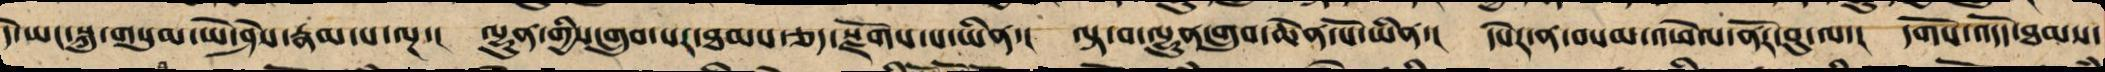དེ་ཡང་སྐུ་གསུམ་ཡེ་ཤེས་རྣམ་པ་ལྔ་། ལྷུན་གྱིས་གྲུབ་པར་ཐམས་ཅད་སྫོགས་པ་ཡིན་། ལྟ་བ་ལྷུན་གྲུབ་ཆེན་པོ་ཡིན་། དཔེར་ན་བསམ་འཕེལ་ནོར་བུ་ལ་། དགོས་འདོད་ཐམས་
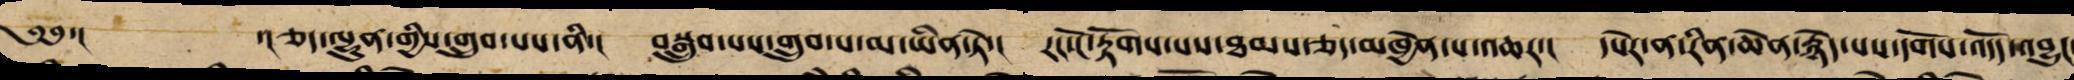༄༅་། ་། ཅད་ལྷུན་གྱིས་གྲུབ་པས་ནི་། བསྒྲུབ་པས་གྲུབ་པ་མ་ཡིན་ཏེ་། རང་ངོ་རྟོགས་པས་ཐམས་ཅད་མཁྱེན་པར་འཆར་། དཔེར་ན་རིན་ཆེན་རྙེད་པས་དགོས་འདོད་འབྱུང
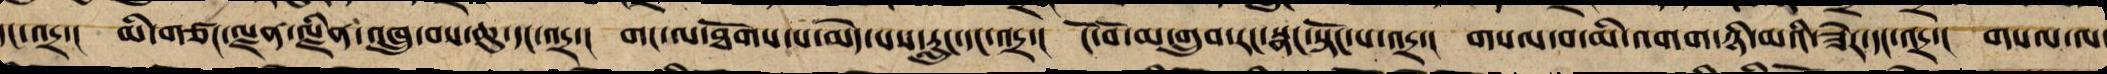དང་འདྲ་། མི་གཙང་ལྗན་ལྗིན་འཁྲུ་བས་ཆུ་དང་འདྲ་། གང་ལ་ཐོགས་པ་མེད་པས་རླུང་དང་འདྲ་། ངོ་བོ་མ་གྲུབ་རང་སྣང་སྟོང་པ་འདྲ་། གསལ་བ་མི་འགག་ཉི་མའི་ཟེར་དང་འདྲ་། གསལ་ལ་
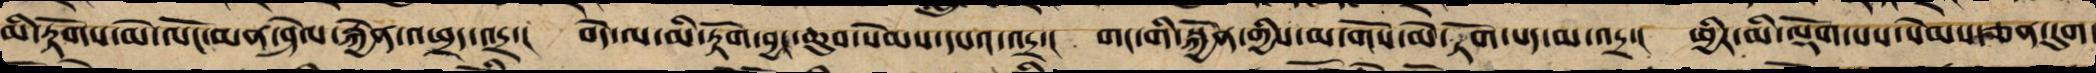མི་རྟོག་མེ་ལོང་མན་ཤེལ་རྐྱེན་འཕྲད་འདྲ་། བདེ་ལ་མི་རྟོག་བྱང་ཆུབ་སེམས་དཔའ་འདྲ་། གང་གི་སྐྱོན་གྱིས་མ་གོས་མེ་ཏོག་པད་མ་འདྲ་། ཕྱིར་མི་ལྡོག་པས་སེམས་ཅན་དུག་
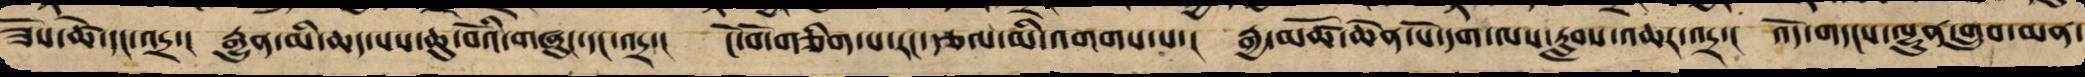ཟོས་ཚེ་དང་འདྲ་། རྒྱུན་མི་ཆད་པས་ཆུ་བོའི་གཞུང་དང་འདྲ་། ངོ་བོ་གཅིག་ལ་རང་རྩལ་མི་འགགས་པ་། རྒྱ་མཚོ་ཆེན་པོ་དག་ལས་རླབས་འཆར་འདྲ་། འོད་གདངས་ལྷུན་གྲུབ་མན་
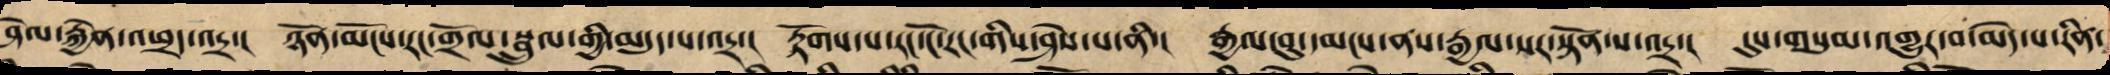ཤེལ་རྐྱེན་འཕྲད་འདྲ་། ཉོན་མོངས་རང་གྲོལ་སྦྲུལ་གྱི་མདུད་པ་འདྲ་། རྟོགས་པ་རང་ངོ་རང་གིས་ཤེས་པ་ནི་། རྒྱལ་བུ་དམངས་ནས་རྒྱལ་སར་སྟོན་པ་འདྲ་། དུས་གསུམ་འགྱུར་བ་མེད་པ་རིན་
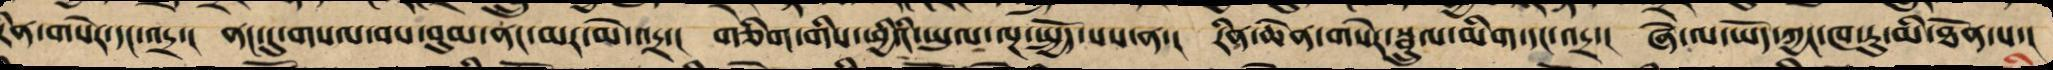ན་གསེར་དང་འདྲ་། ནང་དུ་གསལ་བས་བུམ་ནང་མར་མེ་འདྲ་། གཅིག་གིས་ཕྱིའི་ཡུལ་ལྔ་སྤྱོད་པས་ན་། རིན་ཆེན་གསེར་སྦྲུལ་མིག་དང་འདྲ་། ཞེ་ལ་ཡོད་ཀྱང་ཁ་རུ་མི་ཐོན་པ་།
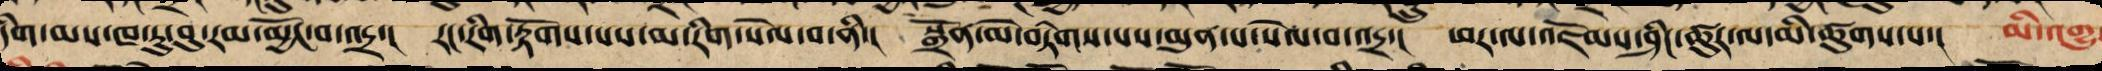དིག་མས་ཁ་རུ་བུ་རམ་མྱོང་བ་འདྲ་། རང་རིག་རྟོགས་པས་མ་རིག་སེལ་བ་ནི་། སྒྲོན་མེ་བཏེགས་པས་མུན་པ་སེལ་བ་འདྲ་། ཕར་ལ་འཇོམས་ཤིང་ཚུར་ལ་མི་ཚུགས་པ་། མི་འགྱུ
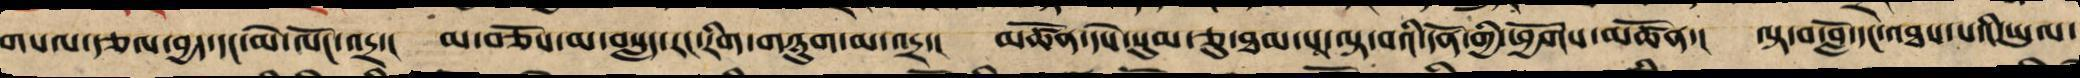གསལ་རྩལ་བྱད་དང་མེ་ལོང་འདྲ་། མ་བཅོས་མ་བསླད་རང་རིག་གཉུག་མ་འདྲ་། མཚོན་དཔེ་སུམ་ཅུ་ཐམ་པ་ལྟ་བའི་དོན་གྱི་ཕྱོགས་མཚོན་། ལྟ་བ་བློ་དང་འཐས་པའི་ཡུལ་
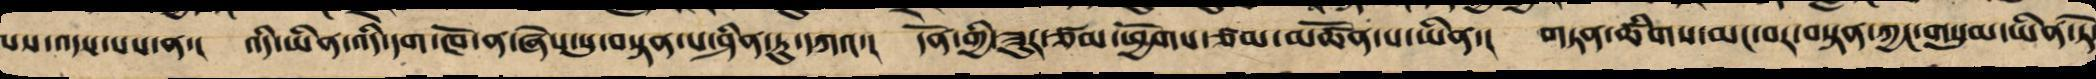པས་འདས་པས་ན་། འདི་ཡིན་འདི་དག་ཁོ་ན་ཞེས་སུ་བསྟན་པ་ཤིན་ཏུ་དཀའ་། དོན་གྱི་ཟུར་ཙམ་ཕྱོགས་ཙམ་མཚོན་པ་ཡིན་། གཏན་ཚིགས་མང་བར་བསྟན་ཀྱང་གསུམ་ཡིན་ཏེ་
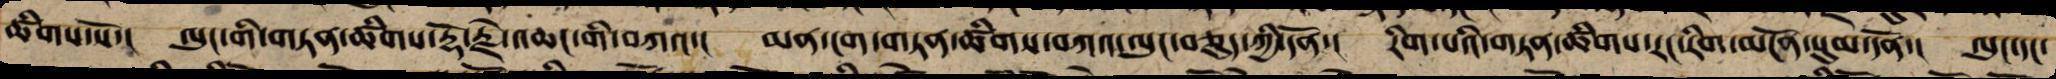ཚིགས་སོ་། ལུང་གི་གཏན་ཚིགས་རྡོ་རྗེ་འཆང་གི་བཀའ་། མན་ངག་གཏན་ཚིགས་བཀའ་ལུང་བཅུད་ཀྱི་དོན་། རིག་པའི་གཏན་ཚིགས་རང་རིག་མངོན་སུམ་དོན་། ལུང་དང་
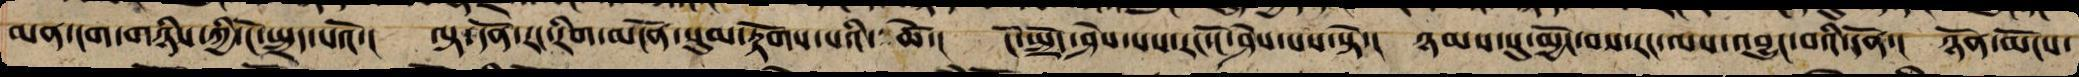མན་ངག་གཉིས་ཀྱིས་ངོ་སྤྲད་པའོ་། ལྟ་དོན་རང་རིག་མངོན་སུམ་རྟོགས་པའི་ ཚེ་། ངོ་སྤྲོད་ཤེས་པས་རང་ངོ་ཤེས་པས་སྟེ་། ཉམས་སུ་མྱོང་བས་རང་ལས་འབྱུང་བའི་དོན་། ཉོན་མོངས་
